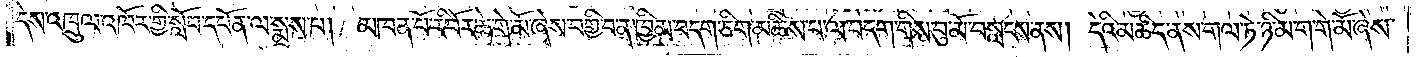དེས་འཁྲུལ་འཁོར་གྱི་སློབ་དཔོན་ལ་སྨྲས་པ། མཁན་པོ་རི་བོར་ཆེ་གེ་མོ་ཞེས་བགྱི་བ་ན་ཁྱིམ་བདག་ཅིག་མཆིས་པ་ལ་བདག་གིས་བུ་མོ་བསླངས་ནས། དེའི་མཆིད་ནས་གལ་ཏེ་ཉི་མ་ག་གེ་མོ་ཞེས་
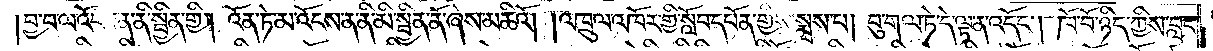།བྱ་བ་ལ་འོངས་ན་ནི་སྦྱིན་གྱི། འོན་ཏེ་མ་འོངས་ན་ནི་མི་སྦྱིན་ནོ་ཞེས་མཆིའོ། །འཁྲུལ་འཁོར་གྱི་སློབ་དཔོན་གྱིས་སྨྲས་པ། བུ་གལ་ཏེ་དེ་ལྟ་ན་འདོང༌། ཁོ་བོ་ཉིད་ཀྱིས་བླང་
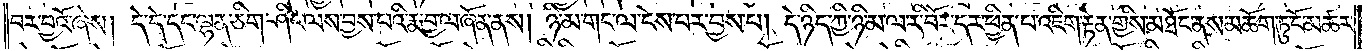བར་བྱའོ་ཞེས། དེ་དེ་དང་ལྷན་ཅིག་ཤིང་ལས་བྱས་པའི་རྨ་བྱ་ལ་ཞོན་ནས། ཉི་མ་གང་ལ་ངེས་པར་བྱས་པ། དེ་ཉིད་ཀྱི་ཉི་མ་ལ་རི་བོར་དེར་ཕྱིན་པ་འཇིག་རྟེན་གྱིས་མཐོང་ནས་མཆོག་ཏུ་ངོ་མཚར་
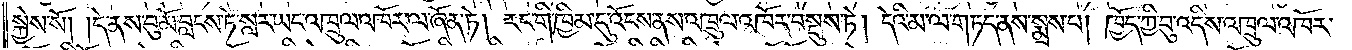སྐྱེས་སོ། །དེ་ནས་བུ་མོ་བླངས་ཏེ་སླར་ཡང་འཁྲུལ་འཁོར་ལ་ཞོན་ཏེ། རང་གི་ཁྱིམ་དུ་འོངས་ནས་འཁྲུལ་འཁོར་བསྡུས་ཏེ། དེའི་མ་ལ་གཏད་ནས་སྨྲས་པ། ཁྱོད་ཀྱི་བུ་འདིས་འཁྲུལ་འཁོར་
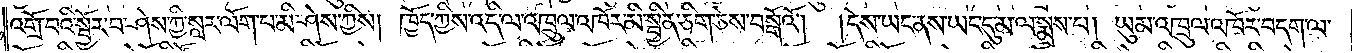འགྲོ་བའི་སྦྱོར་བ་ཤེས་ཀྱི་སླར་ལོག་པ་མི་ཤེས་ཀྱིས། ཁྱོད་ཀྱིས་འདི་ལ་འཁྲུལ་འཁོར་མི་སྦྱིན་ཅིག་ཅེས་བསྒོའོ། །དེས་ཡང་ནས་ཡང་དུ་མ་ལ་སྨྲས་པ། ཡུམ་འཁྲུལ་འཁོར་བདག་ལ་
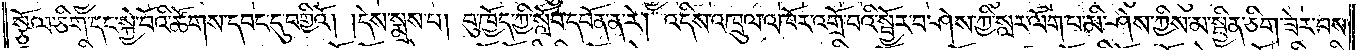སྩོལ་ཅིག་དང་སྐྱེ་བོའི་ཚོགས་དབང་དུ་བགྱིའོ། །དེས་སྨྲས་པ། བུ་ཁྱོད་ཀྱི་སློབ་དཔོན་ན་རེ། འདིས་འཁྲུལ་འཁོར་འགྲོ་བའི་སྦྱོར་བ་ཤེས་ཀྱི་སླར་ལོག་པ་མི་ཤེས་ཀྱིས་མ་སྦྱིན་ཅིག་ཟེར་བས་
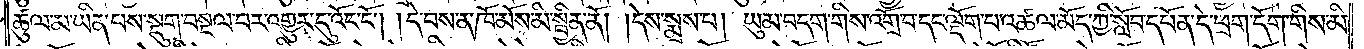ཚུལ་མ་ཡིན་པས་སྡུག་བསྔལ་བར་འགྱུར་དུ་འོང་ངོ༌། །དེ་བས་ན་ཁོ་མོས་མི་སྦྱིན་ནོ། །དེས་སྨྲས་པ། ཡུམ་བདག་གིས་འགྲོ་བ་དང་ལྡོག་པ་འཚལ་མོད་ཀྱི་སློབ་དཔོན་དེ་ཕྲག་དོག་གིས་མི་
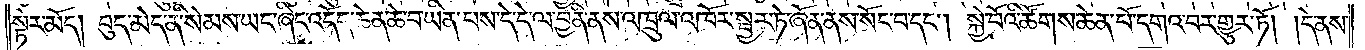སྟེར་མོད། བུད་མེད་ནི་སེམས་ཡང་ཞིང་འདོད་ཆེན་ཆེ་བ་ཡིན་པས་དེ་དེ་ལ་བྱིན་ནས་འཁྲུལ་འཁོར་སྦྱར་ཏེ་ཞོན་ནས་སོང་བ་དང༌། སྐྱེ་བོའི་ཚོགས་ཆེན་པོ་དགའ་བར་གྱུར་ཏོ། །དེ་ནས་
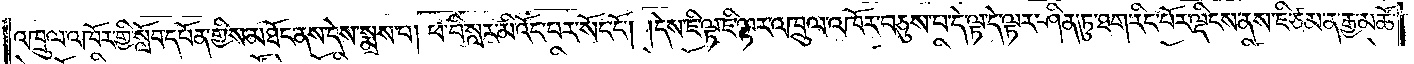འཁྲུལ་འཁོར་གྱི་སློབ་དཔོན་གྱིས་མཐོང་ནས་དེས་སྨྲས་པ། ཕ་བི་སླར་མི་འོང་པར་སོང་ངོ༌། །དེས་ཇི་ལྟ་ཇི་ལྟར་འཁྲུལ་འཁོར་བཅུས་པ་དེ་ལྟ་དེ་ལྟར་ཤིན་ཏུ་ཐག་རིང་པོར་ལྡིངས་ནས་ཇི་ཙམ་ན་རྒྱ་མཚོ་
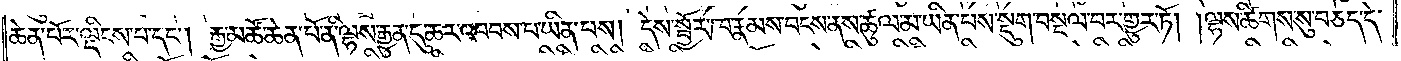ཆེན་པོར་ལྡིང་པ་དང༌། རྒྱ་མཚོ་ཆེན་པོ་ནི་ལྷས་རྒྱུན་དུ་ཆར་འབབས་པ་ཡིན་པས། དེས་སྦྱོར་ཁ་རྣམས་བངས་ནས་ཚུལ་མ་ཡིན་པས་སྡུག་བསྔལ་བར་གྱུར་ཏོ། །ལྷས་ཚིགས་སུ་བཅད་དེ་
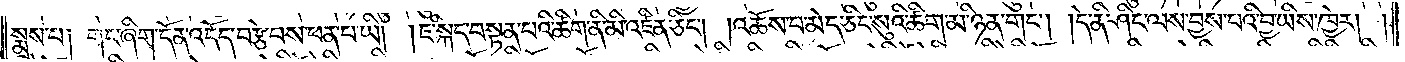སྨྲས་པ། གང་ཞིག་དོན་འདོད་བརྩེ་བས་ཕན་པ་ཡི། །ཇི་སྐད་བསྟན་པའི་ཚིག་ནི་མི་འཛིན་ཅིང༌། །འཆོས་པ་མེད་ཅིང་སུའི་ཚིག་མི་ཉན་གང༌། །དེ་ནི་ཤིང་ལས་བྱས་པའི་བྱ་ཡིས་ཁྱེར། །
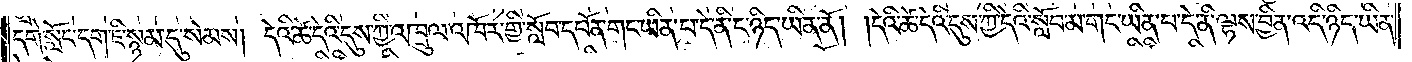དགེ་སློང་དག་ཇི་སྙམ་དུ་སེམས། དེའི་ཚེ་དེའི་དུས་ཀྱི་འཁྲུལ་འཁོར་གྱི་སློབ་དཔོན་གང་ཡིན་པ་དེ་ནི་ང་ཉིད་ཡིན་ནོ། །དེའི་ཚེ་དེའི་དུས་ཀྱི་དེའི་སློབ་མ་གང་ཡིན་པ་དེ་ནི་ལྷས་བྱིན་འདི་ཉིད་ཡིན་
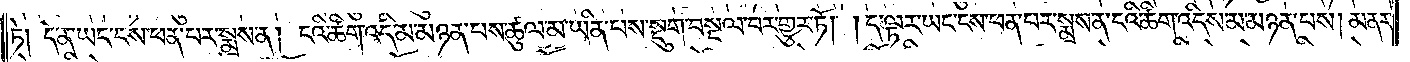ཏེ། དེ་ན་ཡང་ངས་ཕན་པར་སྨྲས་ན། ངའི་ཚིག་འདི་མ་མཉན་པས་ཚུལ་མ་ཡིན་པས་སྡུག་བསྔལ་བར་གྱུར་ཏོ། །ད་ལྟར་ཡང་ངས་ཕན་པར་སྨྲས་ན་ངའི་ཚིག་འདིས་མ་མཉན་པས། མནར་
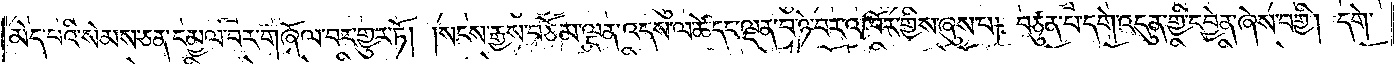མེད་པའི་སེམས་ཅན་དམྱལ་བར་གཞོལ་བར་གྱུར་ཏོ། །སངས་རྒྱས་བཅོམ་ལྡན་འདས་ལ་ཚེ་དང་ལྡན་པ་ཉེ་བར་འཁོར་གྱིས་ཞུས་པ། བཙུན་པ་དགེ་འདུན་གྱི་དབྱེན་ཞེས་བགྱི། དགེ་
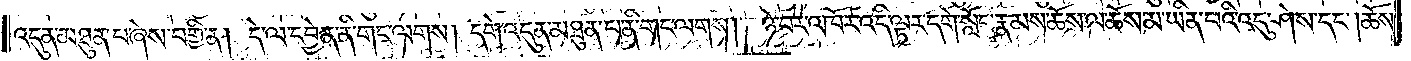འདུན་མཐུན་པ་ཞེས་བགྱི་ན། དེ་ལ་དབྱེན་ནི་གང་ལགས། དགེ་འདུན་མཐུན་པ་ནི་གང་ལགས། ཉེ་བར་འཁོར་འདི་ལྟར་དགེ་སློང་རྣམས་ཆོས་ལ་ཆོས་མ་ཡིན་པའི་འདུ་ཤེས་དང༌། ཆོས་
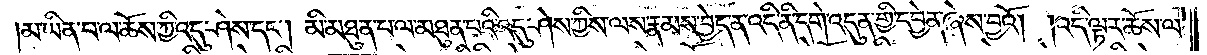མ་ཡིན་པ་ལ་ཆོས་ཀྱི་འདུ་ཤེས་དང༌། མི་མཐུན་པ་ལ་མཐུན་པའི་འདུ་ཤེས་ཀྱིས་ལས་རྣམས་བྱེད་ན་འདི་ནི་དགེ་འདུན་གྱི་དབྱེན་ཞེས་བྱའོ། །འདི་ལྟར་ཆོས་ལ་
